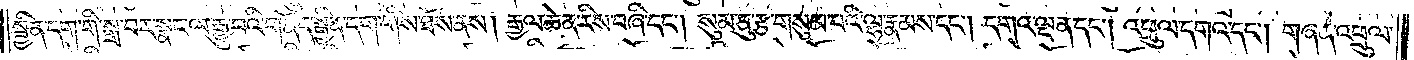སྦྱིན་དག་གི་སྒྲ་བར་སྣང་ལ་རྒྱུ་བའི་གནོད་སྦྱིན་དག་གིས་ཐོས་ནས། རྒྱལ་ཆེན་རིས་བཞི་དང༌། སུམ་ཅུ་རྩ་གསུམ་པའི་ལྷ་རྣམས་དང༌། དགའ་ལྡན་དང༌། འཕྲུལ་དགའ་དང༌། གཞན་འཕྲུལ་
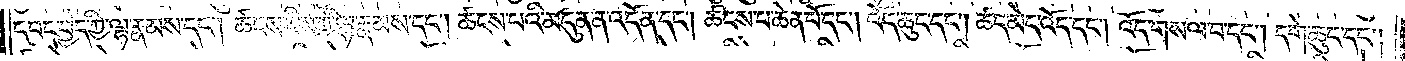དབང་བྱེད་ཀྱི་ལྷ་རྣམས་དང༌། ཚངས་རིས་ཀྱི་ལྷ་རྣམས་དང༌། ཚངས་པའི་མདུན་ན་འདོན་དང༌། ཚངས་པ་ཆེན་པོ་དང༌། འོད་ཆུང་དང༌། ཚད་མེད་འོད་དང༌། འོད་གསལ་བ་དང༌། དགེ་ཆུང་དང༌།
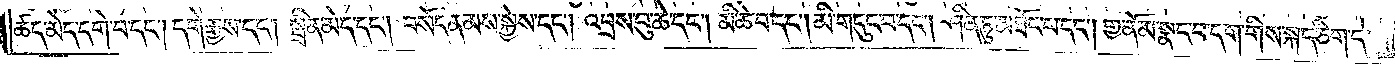ཚང་མེད་དགེ་བ་དང༌། དགེ་རྒྱས་དང༌། སྤྲིན་མེད་དང༌། བསོད་ནམས་སྐྱེས་དང༌། འབྲས་བུ་ཆེ་དང༌། མི་ཆེ་བ་དང༌། མི་གདུང་བ་དང༌། ཤིན་ཏུ་མཐོང་པ་དང༌། གྱ་ནོམ་སྣང་བ་དག་གིས་སྐད་ཅིག་དེ་
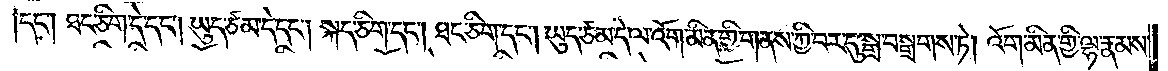།དང༌། ཐང་ཅིག་དེ་དང༌། ཡུད་ཙམ་དེ་དང༌། སྐད་ཅིག་དང༌། ཐང་ཅིག་དང༌། ཡུད་ཙམ་དེ་ལ་འོག་མིན་གྱི་གནས་ཀྱི་བར་དུ་སྒྲ་བསྒྲགས་ཏེ། འོག་མིན་གྱི་ལྷ་རྣམས་
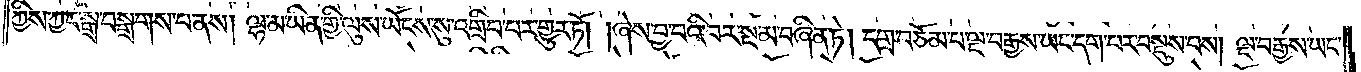ཀྱིས་ཀྱང་སྒྲ་བསྒྲགས་པ་ནས། ལྷ་མ་ཡིན་གྱི་ལུས་ཡོངས་སུ་འགྲིབ་པར་གྱུར་ཏོ། །ཞེས་བྱ་བའི་བར་སྔ་མ་བཞིན་ཏེ། དགྲ་བཅོམ་པ་ལྔ་བརྒྱས་ཡང་དག་པར་བསྡུས་པས། ལྔ་བརྒྱས་ཡང་
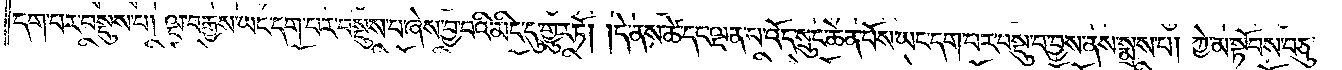དག་པར་བསྡུས་པ། ལྔ་བརྒྱས་ཡང་དག་པར་བསྡུས་པ་ཞེས་བྱ་བའི་མིང་དུ་གྱུར་ཏོ། །དེ་ནས་ཚེ་དང་ལྡན་པ་འོད་སྲུང་ཆེན་པོས་ཡང་དག་པར་བསྡུ་བ་བྱས་ནས་སྨྲས་པ། ཀྱེ་མ་སྟོབས་བཅུ་
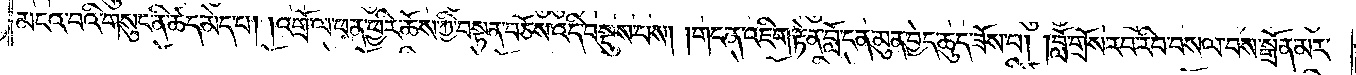མངའ་བའི་གསུང་ནི་ཚད་མེད་པ། །འགྲོ་ལ་ཕན་ཕྱིར་ཆོས་ཀྱི་བསྟན་བཅོས་འདི་བསྡུས་པས། །གང་ན་འཇིག་རྟེན་བློ་ངན་མུན་བྱེད་ཆུད་ཟོས་པ། །བློ་གྲོས་རབ་རིབ་བསལ་བས་སྒྲོན་མར་
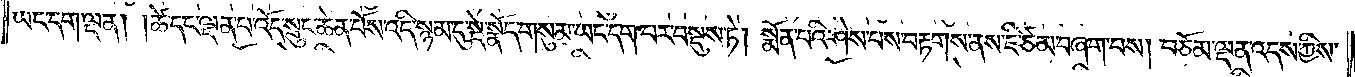ཡང་དག་ལྡན། །ཚེ་དང་ལྡན་པ་འོད་སྲུང་ཆེན་པོས་འདི་སྙམ་དུ་སྡེ་སྣོད་གསུམ་ཡང་དག་པར་བསྡུས་ཏེ། སྨོན་པའི་ཤེས་པས་བརྟགས་ནས་ཇི་ཙམ་བཞག་པས། བཅོམ་ལྡན་འདས་ཀྱིས་
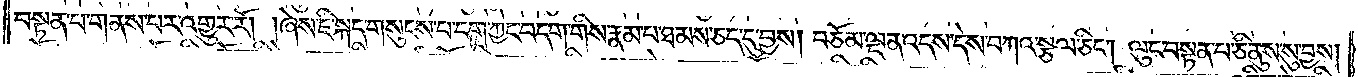བསྟན་པ་གནས་པར་འགྱུར་རོ། །ཞེས་ཇི་སྐད་གསུངས་པ་དག་ཀྱང་བདག་གིས་རྣམ་པ་ཐམས་ཅད་དུ་བྱས། བཅོམ་ལྡན་འདས་དེས་བཀའ་སྩལ་ཅིང༌། ལུང་བསྟན་པ་ཅི་ནུས་སུ་བྱས།
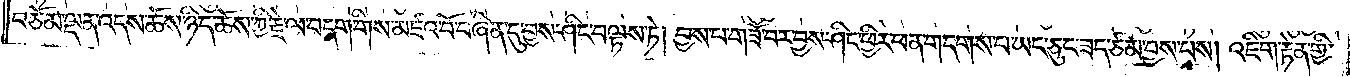བཅོམ་ལྡན་འདས་ཆོས་ཉིད་ཆོས་ཀྱི་རྗེ་ལ་བདག་གིས་མཛའ་བོ་བཞིན་དུ་བྱས་ཤིང་བལྟས་ཏེ། བྱས་པ་གཟོ་བར་བྱས་ཤིང་ཕྱིར་ཕན་གདགས་པ་ཡང་ཅུང་ཟད་ཙམ་བྱས་པས། འཇིག་རྟེན་གྱི་
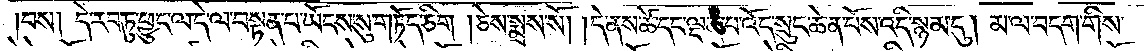བས། དེ་རབ་ཏུ་ཕྱུང་ལ་དེ་ལ་བསྟན་པ་ཡོངས་སུ་གཏོད་ཅིག །ཅེས་སྨྲས་སོ། །དེ་ནས་ཚེ་དང་ལྡན་པ་འོད་སྲུང་ཆེན་པོས་འདི་སྙམ་དུ། མ་ལ་བདག་གིས་
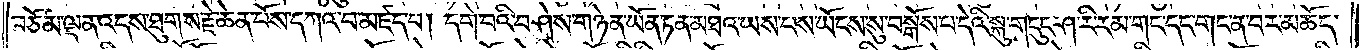བཅོམ་ལྡན་འདས་ཐུགས་རྗེ་ཆེན་པོས་དཀའ་བ་མཛད་པ། དགེ་བའི་བཤེས་གཉེན་ཡོན་ཏན་མཐའ་ཡས་པས་ཡོངས་སུ་བསྒོས་པ་དེའི་སྐུ་གདུང་ཤ་རི་རམ་གང་དང་གང་ན་བར་མཆོད་
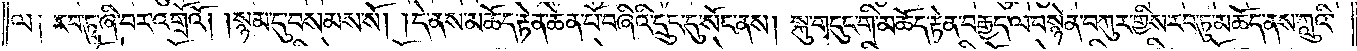ལ༑ རབ་ཏུ་ཞི་བར་འགྲོའོ། །སྙམ་དུ་བསམས་སོ། །དེ་ནས་མཆོད་རྟེན་ཆེན་པོ་བཞིའི་དྲུང་དུ་སོང་ནས། སྐུ་གདུང་གི་མཆོད་རྟེན་བརྒྱད་ལ་བསྙེན་བཀུར་གྱིས་རབ་ཏུ་མཆོད་ནས་ཀླུའི་
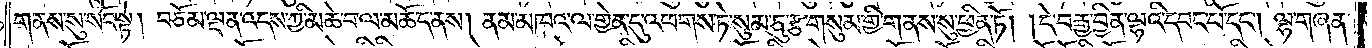གནས་སུ་སོང་སྟེ། བཅོམ་ལྡན་འདས་ཀྱི་མཆེ་བ་ལ་མཆོད་ནས། ནམ་མཁའ་ལ་གྱེན་དུ་འཕགས་ཏེ་སུམ་ཅུ་རྩ་གསུམ་གྱི་གནས་སུ་ཕྱིན་ཏོ། །དེ་བརྒྱ་བྱིན་ལྷའི་དབང་པོ་དང༌། ལྷ་གཞན་
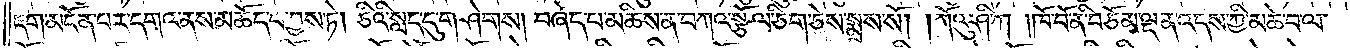དག་མངོན་པར་དགའ་ནས་མཆོད་པ་བྱས་ཏེ། ཅིའི་སླད་དུ་གཤེགས། བཞེད་པ་མཆིས་ན་བཀའ་སྩོལ་ཅིག་ཅེས་སྨྲས་སོ། །ཀོའུ་ཤི་ཀ །ཁོ་བོ་ནི་བཅོམ་ལྡན་འདས་ཀྱིས་མཆེ་བ་ལ་
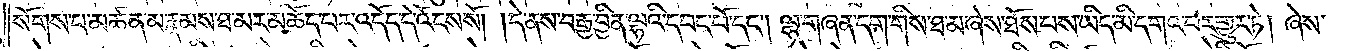སོགས་པ་མཚན་མ་རྣམས་ཐ་མར་མཆོད་པར་འདོད་དེ་འོངས་སོ། །དེ་ནས་བརྒྱ་བྱིན་ལྷའི་དབང་པོ་དང༌། ལྷ་གཞན་དག་གིས་ཐ་མ་ཞེས་ཐོས་པས་ཡིད་མི་དགའ་བར་གྱུར་ཏེ། ཞེས་
